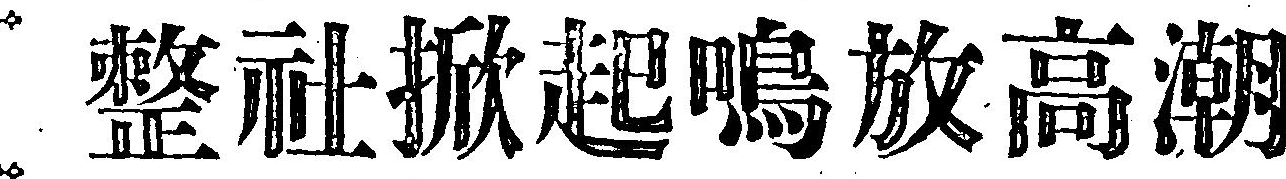整社掀起鳴放高潮
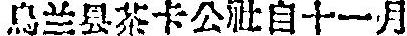烏兰县茶卡公社自十一月
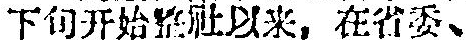下旬开始整社以来，在省委、
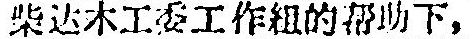柴达木工委工作組的帮助下，
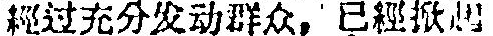經过充分发动群众，已經掀起
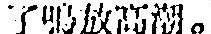了鳴放高潮。
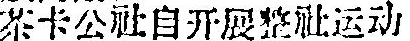茶卡公社白开展整社运动
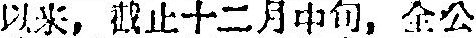以来，截止十二月中旬，全公
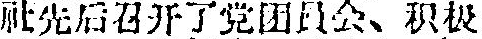社先后召开了党团員会、积极
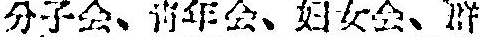分子会、靑年会、妇女会、群
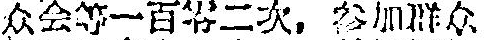众会等一百零二次，參加群众
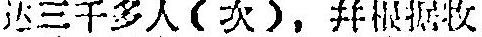达三千多人（次），并根据牧
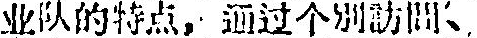业队的特点，通过个別訪問、
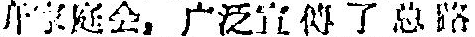开家庭会，广泛宣傳了总路
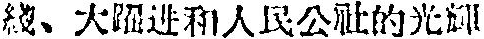綫、大躍进和人民公社的光輝
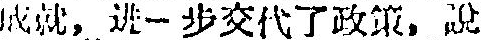成就，进一步交代了政策，說
